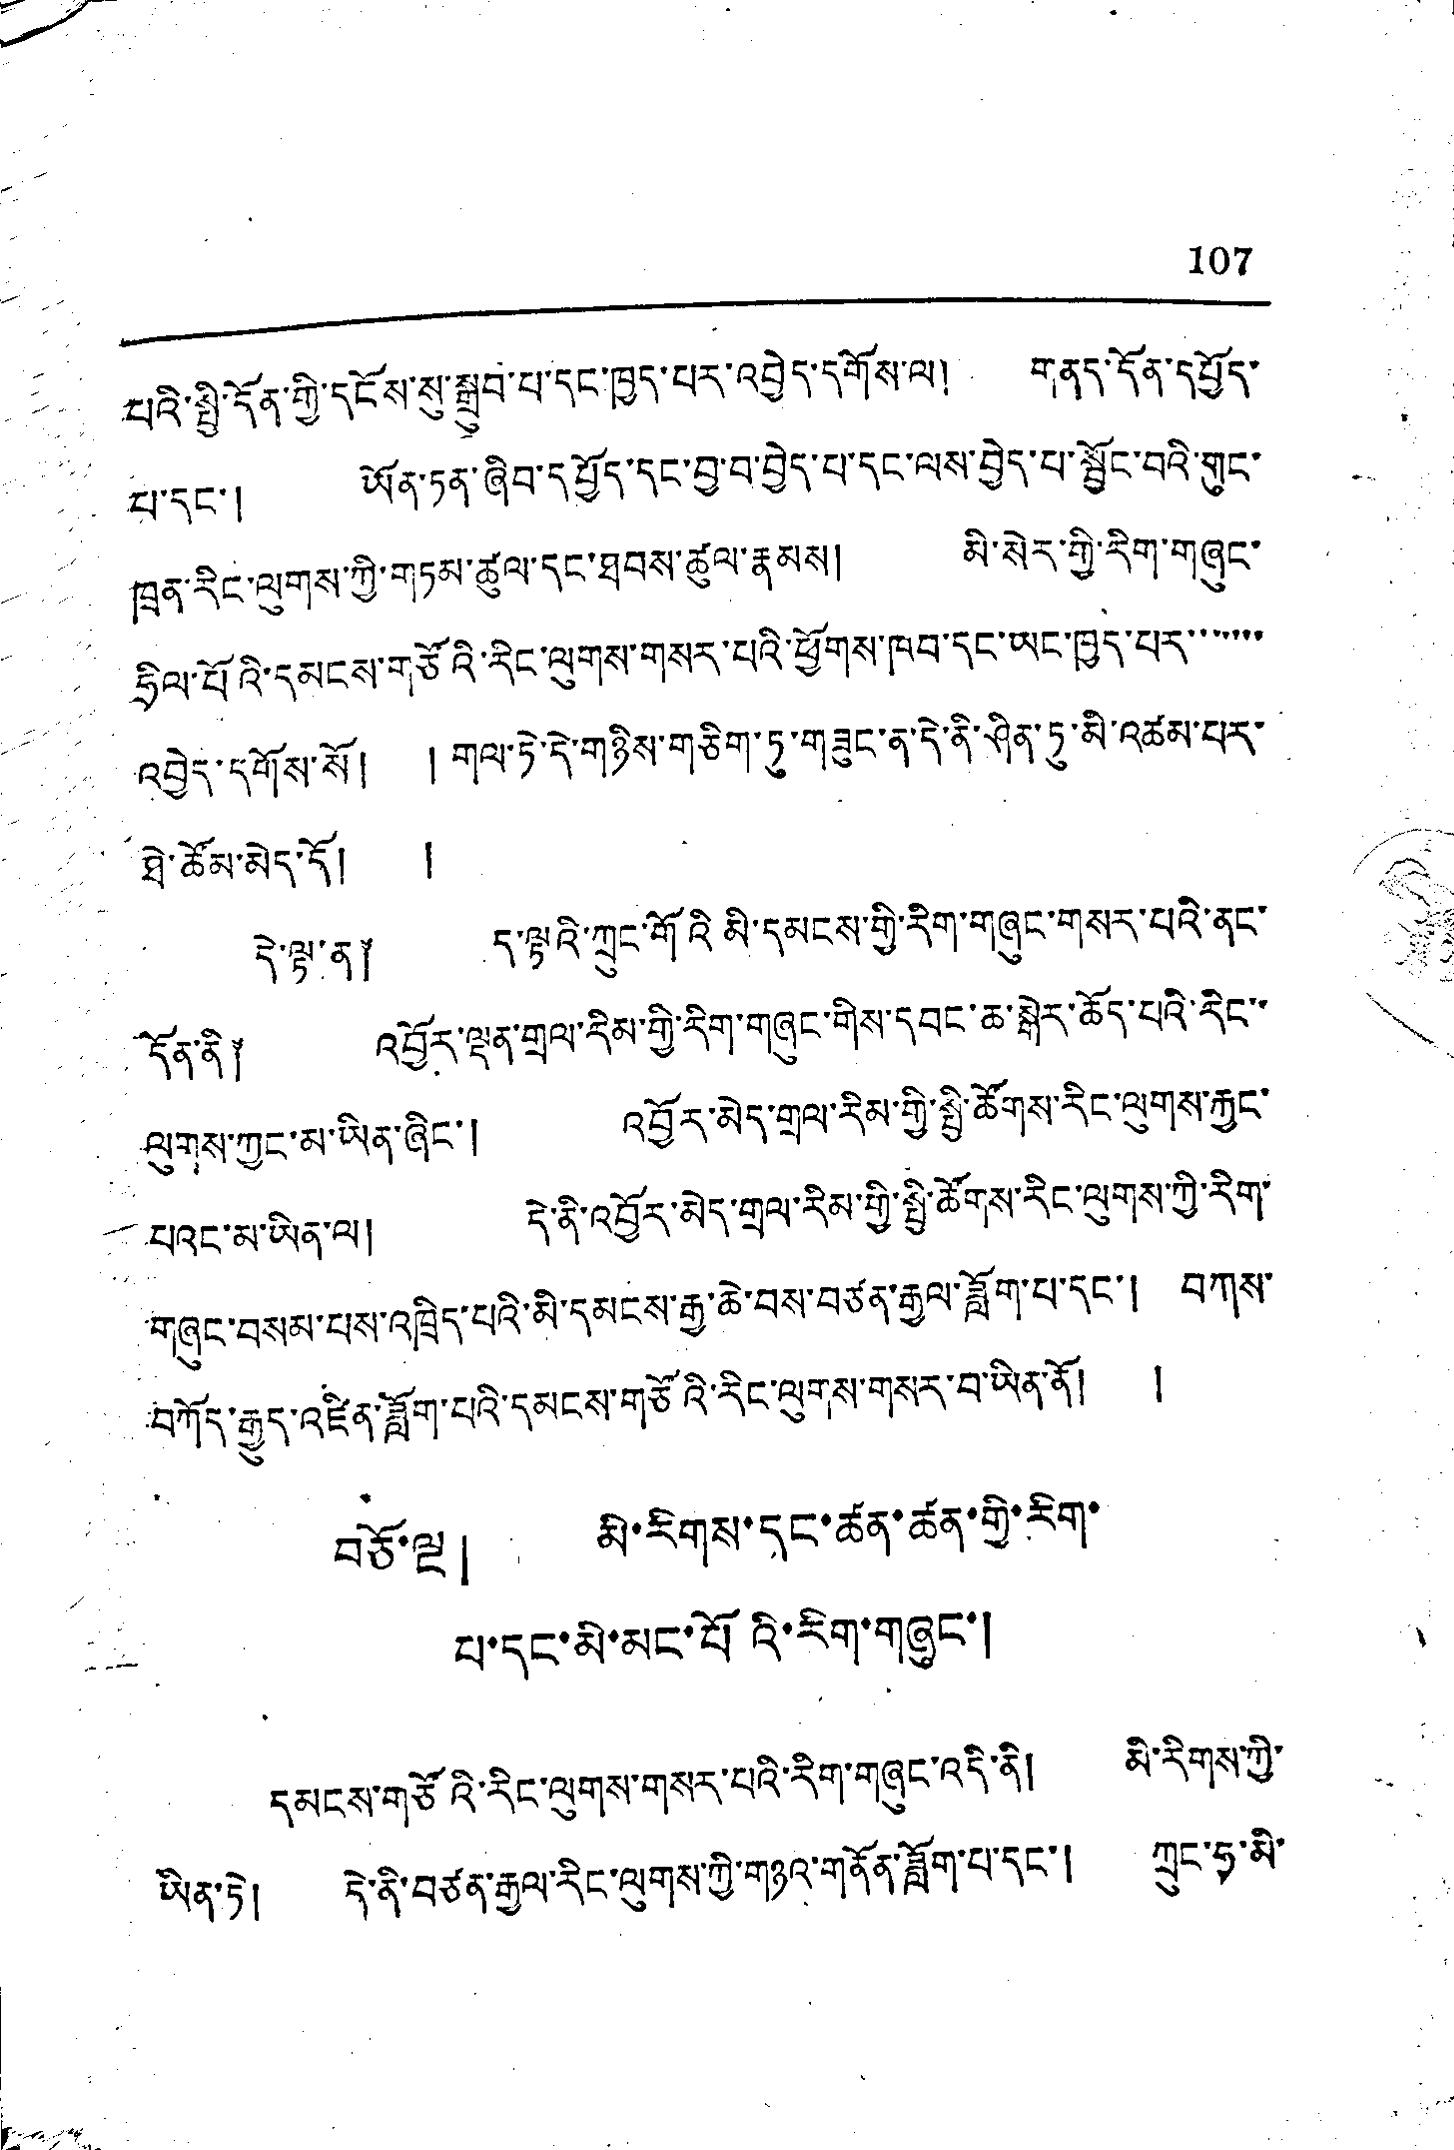107
པའི་སྤྱི་དོན་གྱི་དངོས་སུ་སྒྲུབ་པ་དང་ཁྱད་པར་འབྱེད་དགོས་ལ། གནད་དོན་དཔྱོད་
པ་དང་། ཡོན་ཏན་ཞིབ་དཔྱོད་དང་བྱ་བ་བྱེད་པ་དང་ལས་བྱེད་པ་སྦྱོང་བའི་གུང་
ཁྲན་རིང་ལུགས་ཀྱི་གཏམ་ཚུལ་དང་ཐབས་ཚུལ་རྣམས། མི་སེར་གྱི་རིག་གཞུང་
ཧྲིལ་པོའི་དམངས་གཙོའི་རིང་ལུགས་གསར་པའི་ཕྱོགས་ཁབ་དང་ཡང་ཁྱད་པར་་་་་་་
འབྱེད་དགོས་སོ། །གལ་ཏེ་དེ་གཉིས་གཅིག་ཏུ་གཟུང་ན་དེ་ནི་ཤིན་ཏུ་མི་འཚམ་པར་
ཐེ་ཚོམ་མེད་དོ། །
དེ་ལྟ་ན༐ ད་ལྟའི་ཀྲུང་གོའི་མི་དམངས་གྱི་རིག་གཞུང་གསར་པའི་ནང་
དོན་ནི༐ འབྱོར་ལྡན་གྲལ་རིམ་གྱི་རིག་གཞུང་གིས་དབང་ཆ་སྒེར་ཆོད་པའི་རིང་་
ལུགས་ཀྱང་མ་ཡིན་ཞིང་། འབྱོར་མེད་གྲལ་རིམ་གྱི་སྤྱི་ཚོགས་རིང་ལུགས་རྐྱང་
པའང་མ་ཡིན་ལ། དེ་ནི་འབྱོར་མེད་གྲལ་རིམ་གྱི་སྤྱི་ཚོགས་རིང་ལུགས་ཀྱི་རིག་
གཞུང་བསམ་པས་འཁྲིད་པའི་མི་དམངས་རྒྱ་ཆེ་བས་བཙན་རྒྱལ་ཟློག་པ་དང་། བཀས་
བཀོད་རྒྱུད་འཛིན་ཟློག་པའི་དམངས་གཙོའི་རིང་ལུགས་གསར་བ་ཡིན་ནོ། །
བཅོ་ལྔ། མི་རིགས་དང་ཚན་ཚན་གྱི་རིག་
པ་དང་མི་མང་པོའི་རིག་གཞུང་།
དམངས་གཙོའི་རིང་ལུགས་གསར་པའི་རིག་གཞུང་འདི་ནི། མི་རིགས་ཀྱི་
ཡིན་ཏེ། དེ་ནི་བཙན་རྒྱལ་རིང་ལུགས་ཀྱི་གཉའ་གནོན་ཟློག་པ་དང་། ཀྲུང་ཧྭ་མི་
